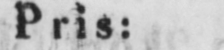Pris:
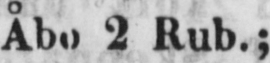Åbo 2 Rub.;
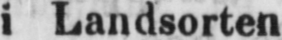i Landsorten
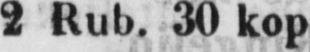2 Rub. 30 kop
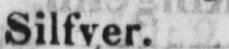Silfver.
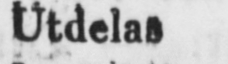Utdelas
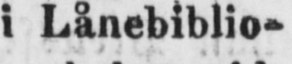i Lånebiblio-
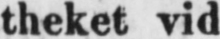theket vid
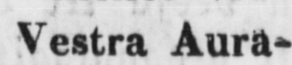Vestra Aura-
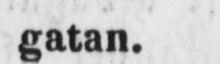gatan.
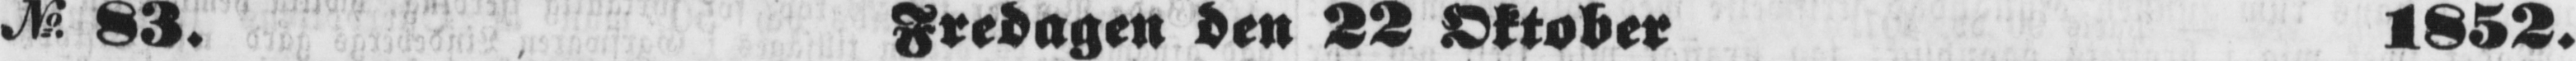N:o 83. Fredagen den 22 Oktober 1852.
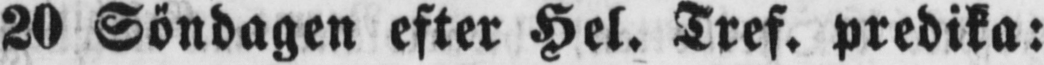20 Söndagen efter Hel. Tref. predika:
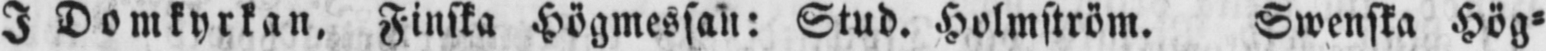I Domkyrkan. Finska Högmessan: Stud. Holmström. Swenska Hög-
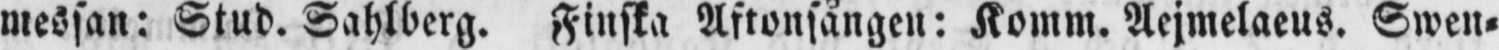messan: Stud. Sahlberg. Finska Aftonsången: Komm. Aejmelaeus. Swen-
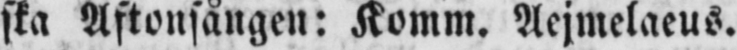ska Aftonsången: Komm. Aejmelaeus.
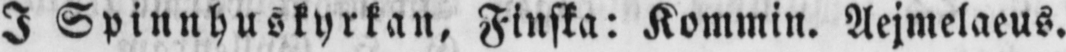I Spinnhuskyrkan, Finska: Kommin. Aejmelaeus.
